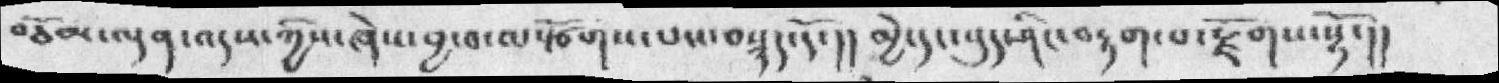བཅོམ་ལྡན་འདས་ཀྱིས་ཞེས་བྱ་བ་ལསྩོགས་པས་བསྙད་དོ་།།  མྱེ་དང་བུད་ཤིང་བརྟག་པ་རྫོགས་སྷོ་།།
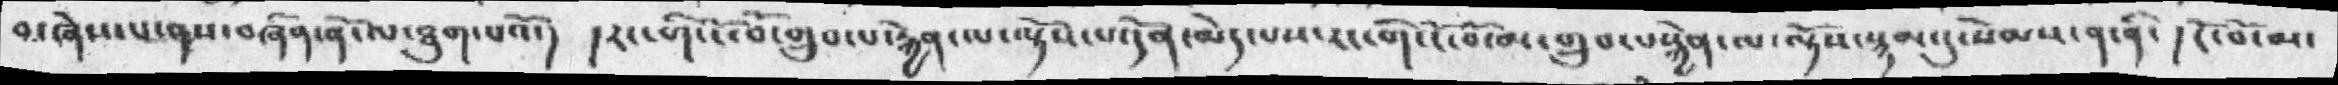བ་ཞེས་པ་ནས་བཞིན་ནོ་ལ་ཐུག་པའོ་།  །རང་གི་ངོ་བོ་གྲུབ་པ་རྐྱེན་ལ་ལྟོས་པ་དོན་མེད་པས་རང་གི་ངོ་བོ་མ་གྲུབ་པསྐྱེན་ལ་ལྟོས་སྙམ་དུ་སེམས་ན་ནི་ ། ངོ་བོ་མ་
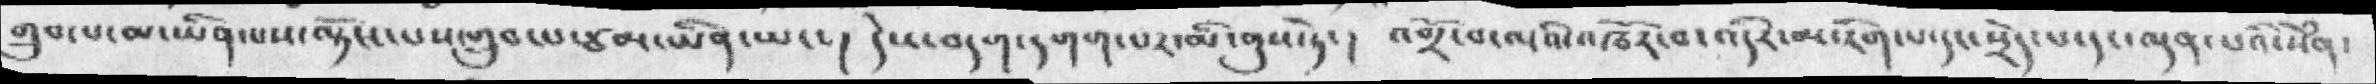གྲུབ་པ་མ་ཡིནཔས་ལྟོས་པས་གྲུབ་པ་ཙམ་ཡིན་ཡང་།  དེས་བདག་དགག་པར་མི་ནུས་ཏེ་།  འགྲོ་བ་འདའི་འཁོར་བ་འདིར་མ་རིག་པ་དང་སྲེད་པ་དང་ལྡན་པའི་སེཾན་
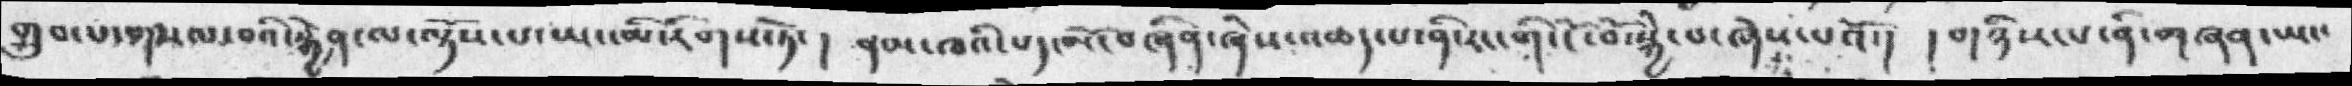གྲུབ་པ་གསལ་བའི་རྐྱེན་ལ་ལྟོས་པ་ཡང་མི་རིགས་ཏེ་།  ནམ་ཁའི་པད་མོ་བཞིན་ཞེས་འཆད་པ་ནི་རང་གི་ངོ་བོ་སྐྱེ་པ་ཞེས་པའོ་། ། གཉིས་པ་ནི་གཞན་ཡང་
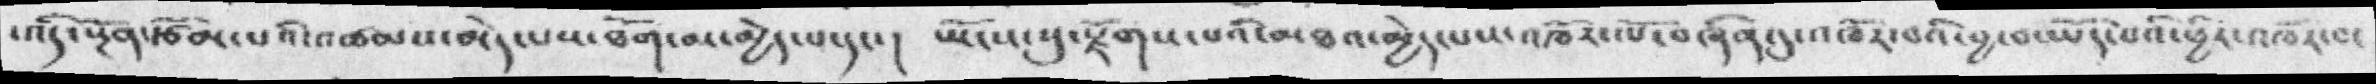་འདི་སྔོན་རྩོམ་པའི་འཚམས་མེད་པས་ཐོག་མ་མེད་པ་དང་།  ཡོངས་སུ་རྫོགས་པའི་མཐའ་མྱེད་པས་འཁོར་ལོ་བཞིན་དུ་འཁོར་བའི་བྱ་བ་ཡོད་པའི་ཕྱིར་འཁོར་བ་
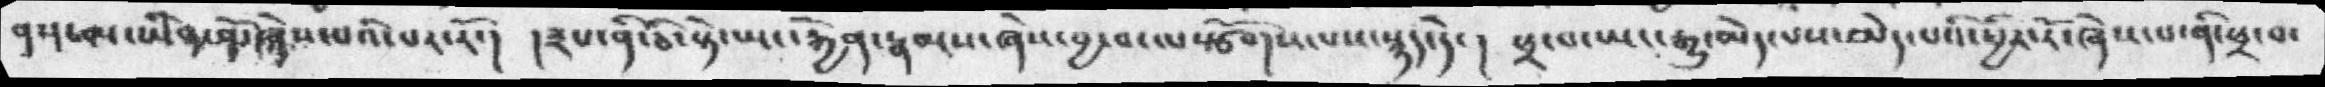ནས་མ་ཡིན་ནོ་ཞེས་པའི་པར་རོ་།   །༣པ་ནི་ཅི་སྟེ་ཡང་རྐྱེན་རྣམས་ཞེས་བྱ་བ་ལསྩོགས་པས་སྙད་དེ་  །  ཕྲ་བ་ཡང་རྒྱུ་མེད་པས་མེད་པའི་ཕྱིར་རོ་ཞེས་པ་ནི་ཕྲ་བ་
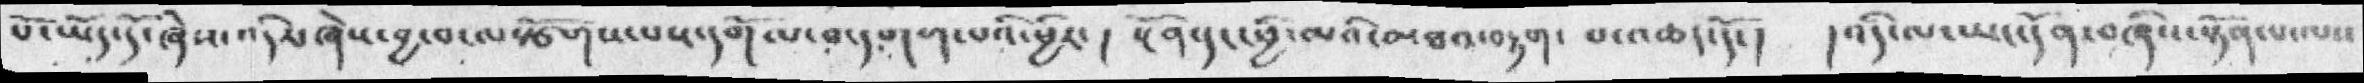པ་ཡོད་དོ་ཞེས་འདིར་ཞེས་བྱ་བ་ལསྩོགས་པས་དགོལ་བ་དགག་པའི་ཕྱིར་ ། སྔོན་དང་ཕྱི་མའི་མཐའ་བརྟག་ པ་འཆད་དོ་།    །འདི་ལ་ཡང་དོན་བཞིས་སྟོན་པ་ལས་
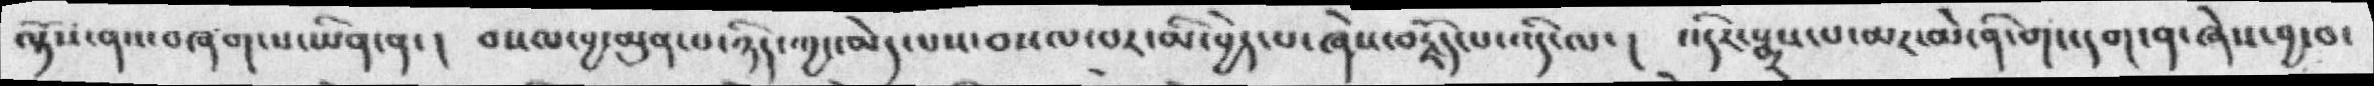ལྟོས་ནས་བཞག་པ་ཡིན་ན་ །  བསལ་བྱ་མུན་པ་ཉིད་ཀྱང་མེད་པས་བསལ་བར་མི་བྱེད་པ་ཞེས་བརྗོད་པ་འདི་ལ་ །   འདིར་སྨྲས་པ་མར་མེ་ནི་གང་དག་ན་ཞེས་བྱ་བ་
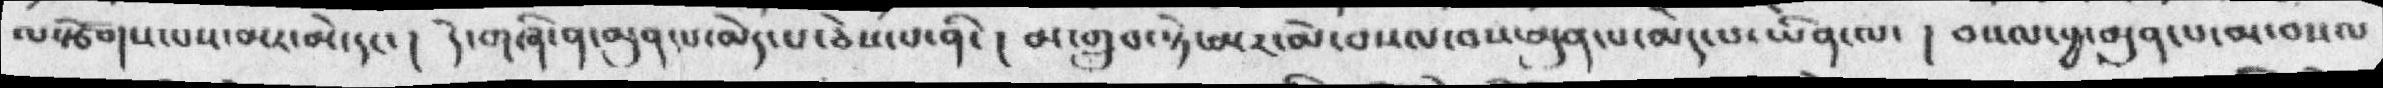ལསྩོགས་པས་མར་མེ་དང་ །   དེ་གཞི་ན་མུན་པ་མེད་པ་ཅེས་པ་ནི་  ། མ་གྲུབ་ཏེ་མར་མེ་བསལ་བས་མུན་པ་མེད་པ་ཡིན་ལ་   །  བསལ་བྱ་མུན་པ་མ་བསལ་
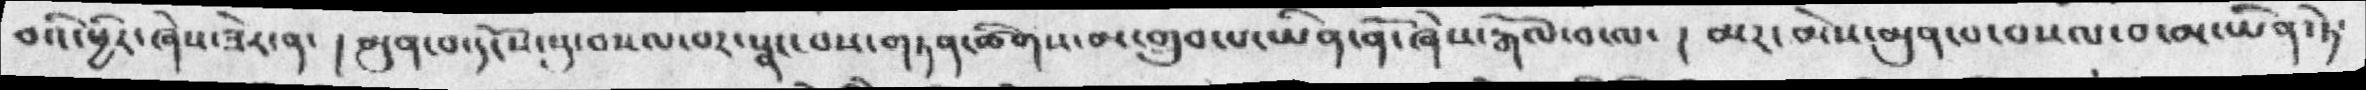བའི་ཕྱིར་ཞེས་ཟེར་ན་  ། མུན་པ་དངོས་སུ་བསལ་བར་སྣང་བས་གཏན་ཚིགས་མ་གྲུབ་པ་ཡིན་ནོ་ཞེས་རྒོལ་བ་ལ་   །  མར་མེས་མུན་པ་བསལ་བ་མ་ཡིན་ཏེ་
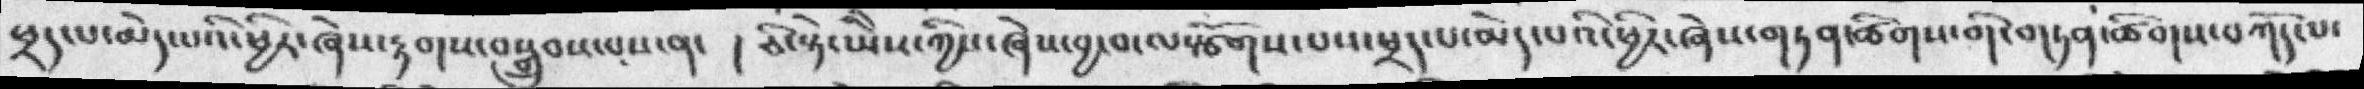ཕྲད་པ་མེད་པའི་ཕྱིར་ཞེས་རྟགས་བསྒྲུབས་པས་ན་  ། ཅི་སྟེ་ཡེེས་ཀྱིས་ཞེས་བྱ་བ་ལསཙོགས་པས་ཕྲད་པ་མེད་པའི་ཕྱིར་ཞེས་གཏན་ཚིགས་གི་གཏན་ཚིགས་བཀོད་པ་
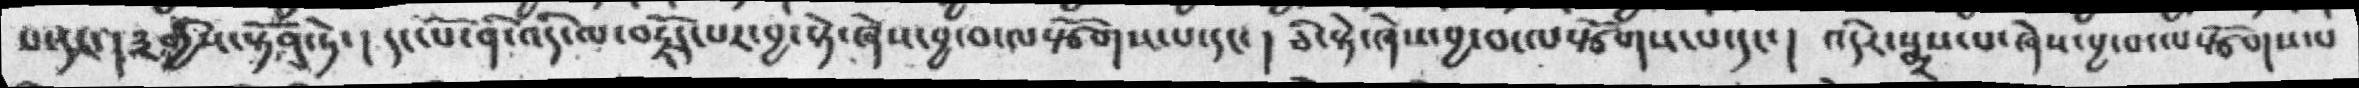པ་དང་། ༣གྱིས་སྟོན་ཏེ་།  དང་པོ་ནི་འདི་ལ་བརྗོད་པར་བྱ་སྟེ་ཞེས་བྱ་བ་ལསྩོགས་པ་དང་། ཅི་སྟེ་ཞེས་བྱ་བ་ལསྩོགས་པ་དང་།  འདིར་སྨྲས་པ་ཞེས་བྱ་བ་ལསྩོགས་པ
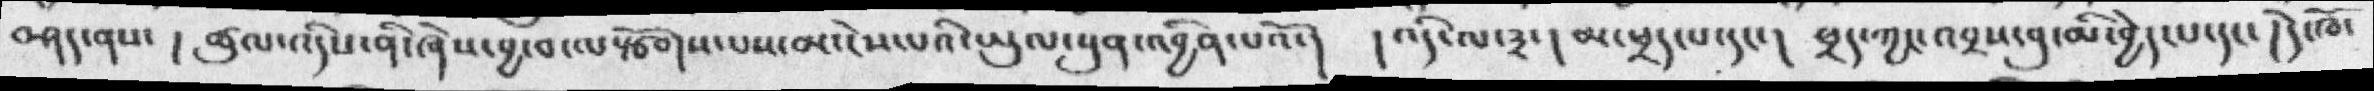བཤད་ནས་  །  ཚུལ་འདིས་ནི་ཞེས་བྱ་བ་ལསྩོགས་པས་མ་ངེས་པའི་ཡུལ་སུན་འབྱིན་པའོ་།  ། འདི་ལ་༣་། མ་ཕྲད་པ་དང་། ཕྲད་ཀྱང་འབྲས་བུ་མི་བྱེད་པ་དང་ །དེ་ཁོ་
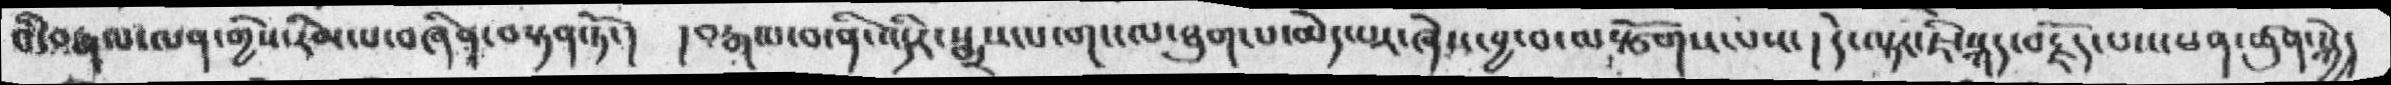བི་བརྒལ་ལན་གྱིས་རིམ་པ་བཞིན་བསྟན་ཏོ་།  །བརྒལ་བ་ནི་འདིར་སྨྲས་པ་གང་ལ་ཐུག་པ་མེད་པར་ཞེས་བྱ་བ་ལསྩོགས་པས་།  དེ་ལྟར་ཇི་སྐད་བརྗོད་པས་ཕན་ཚུན་སྐྱེད
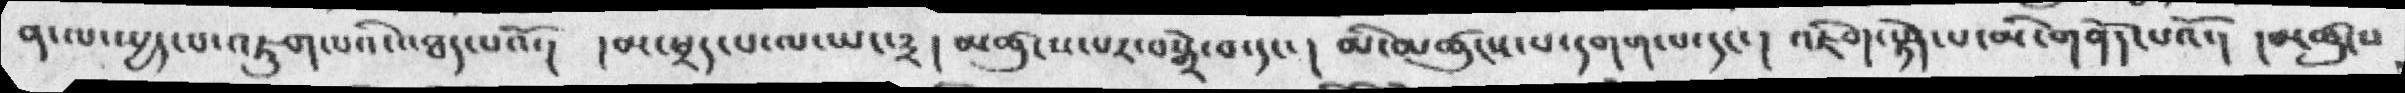ན་ལ་སྤྱད་པ་འཇུག་པའི་འཐད་པའོ་། །མ་ཕྲད་པ་ལ་ཡང་༣། མཚུངས་པར་བསྒྲེ་བ་དང་།  མི་མཚུངས་པ་དགག་པ་དང་། འཇིག་རྟེན་པ་མི་གནོད་པའོ་།  །མཚུངས
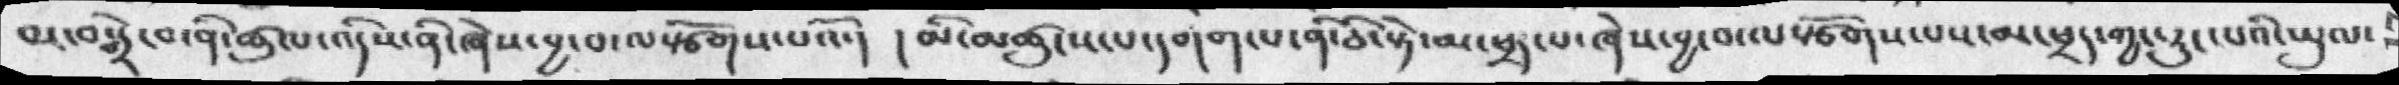མ་བསྒྲེ་བ་ནི་ཚུལ་འདིས་ནི་ཞེས་བྱ་བ་ལསྩོགས་པའོ་།   །མི་མཚུངས་པ་དགག་པ་ནི་ཅི་སྟེ་མ་ཕྲད་པ་ཞེས་བྱ་བ་ལསྩོགས་པས་མ་ཕྲད་གྱང་རུང་པའི་ཡུལ་
